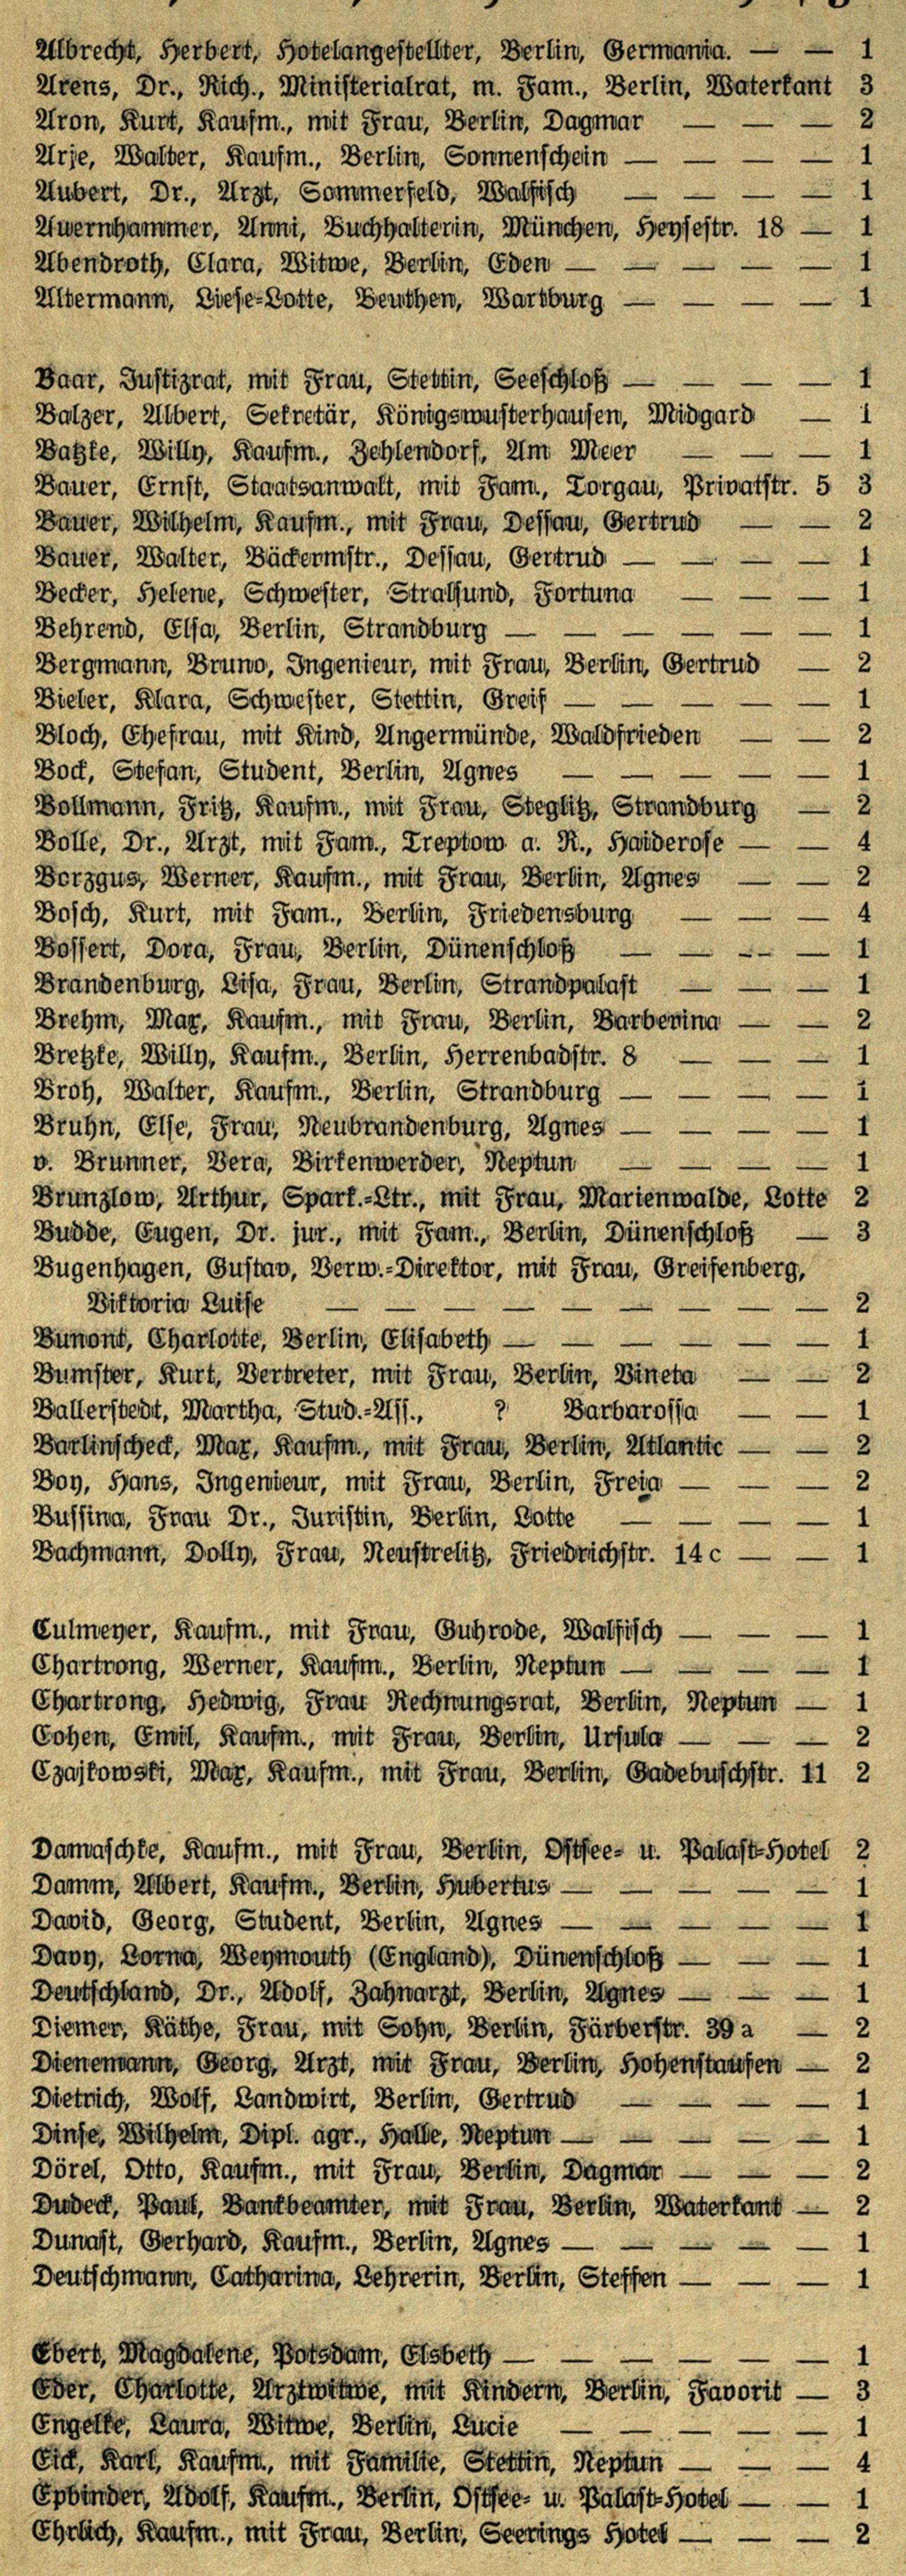Albrecht, Herbert, Hotelangestellter, Berlin, Germania | 1
Arens, Dr., Rich., Ministerialrat, m. Fam., Berlin, Waterkant | 3
Aron, Kurt, Kaufm., mit Frau, Berlin, Dagmar | 2
Arje, Walter, Kaufm., Berlin, Sonneschein | 1
Aubert, Dr., Arzt, Sommerfeld, Walfisch | 1
Auernhammer, Anni, Buchhalterin, Münhen, Heysestr. 18 | 1
Abendroth, Clara, Witwe, Berlin, Eden | 1
Altermann, Liese=Lotte, Beuthen, Martburg | 1
Baar, Justizrat, mit Frau, Stettin, Seeschloß | 1
Balzer, Albert, Sekretär, Königswusterhausen, Midgard | 1
Batzke, Willy, Kaufm., Zehlendorf, Am Meer | 1
Bauer, Ernst, Staatsanwalt, mit Fam., Torgau, Privatstr. 5 | 3
Bauer, Wilhelm, Kaufm., mit Frau, Dessau, Gertrud | 2
Bauer, Walter, Bäckermstr., Dessau, Gertrud | 1
Becker, Helene, Schwester, Stralsund, Fortuna | 1
Behrend, Elsa, Berlin, Strandburg | 1
Bergmann, Bruno, Ingenieur, mit Frau, Berlin, Gertrud | 2
Bieler, Klara, Schwester, Stettin, Greif | 1
Bloch, Ehefrau, mit Kind, Angermünde, Waldfrieden | 2
Bock, Stefan, Student, Berlin, Agnes | 1
Bollmann, Fritz, Kaufm., mit Frau, Steglitz, Strandburg | 2
Bolle, Dr., Arzt, mit Fam., Treptow a. R., Haiderose | 4
Borzgus, Werner, Kaufm., mit Frau, Berlin, Agnes | 2
Bosch, Kurt, mit Fam., Berlin, Friedensburg | 4
Bossert, Dora, Frau, Berlin, Dünenschloß | 1
Brandenburg, Lisa, Frau, Berlin, Strandpalast | 1
Brehm, Max, Kaufm., mit Frau, Berlin, Barberina | 2
Bretzke, Willy, Kaufm., Berlin, Herrenbadstr. 8 | 1
Broh, Walter, Kaufm., Berlin, Strandburg | 1
Bruhn, Else, Frau, Neubrandenburg, Agnes | 1
v. Brunner, Vera, Birkenwerder, Neptun | 1
Brunzlow, Arthur, Spark.=Ltr., mit Frau, Marienwalde, Lotte | 2
Budde, Eugen, Dr. jur., mit Fam., Berlin, Dünenschloß | 3
Bugenhagen, Gustav, Verw.=Direktor, mit Frau, Greifenberg,
Viktoria Luise | 2
Bunont, Charlotte, Berlin, Elisabeth | 1
Bumster, Kurt, Vertreter, mit Frau, Berlin, Vineta | 2
Ballerstedt, Martha, Stud.=Ass., ? Barbarossa | 1
Barlinscheck, Max, Kaufm., mit Frau, Berlin, Atlantic | 2
Boy, Hans, Ingenieur, mit Frau, Berlin, Freia | 2
Bussina, Frau Dr., Juristin, Berlin, Lotte | 1
Bachmann, Dolly, Frau, Neustrelitz, Friedrichstr. 14c | 1
Culmeyer, Kaufm., mit Frau, Guhrode, Walfisch | 1
Chartrong, Werner, Kaufm., Berlin, Neptun | 1
Chartrong, Hedwig, Frau Rechnungsrat, Berlin, Neptun | 1
Cohen, Emil, Kaufm., mit Frau, Berlin, Ursula | 2
Czajkowski, Max, Kaufm., mit Frau, Berlin, Gadebuschstr. 11 | 2
Damaschke, Kaufm., mit Frau, Berlin, Ostsee= u. Palast=Hotel | 2
Damm, Albert, Kaufm., Berlin, Hubertus | 1
David, Georg, Student, Berlin, Agnes | 1
Davy, Lorna, Weymouth (England), Dünenschloß | 1
Deutschland, Dr., Adolf, Zahnarzt, Berlin, Agnes | 1
Diemer, Käthe, Frau, mit Sohn, Berlin, Färberstr. 39a | 2
Dienemann, Georg, Arzt, mit Frau, Berlin, Hohenstaufen | 2
Dietrich, Wolf, Landwirt, Berlin, Gertrud | 1
Dinse, Wilhelm, Dipl. agr., Halle, Neptun | 1
Dörel, Otto, Kaufm., mit Frau, Berlin, Dagmar | 2
Dudeck, Paul, Bankbeamter, mit Frau, Berlin, Waterkant | 2
Dunast, Gerhard, Kaufm., Berlin, Agnes | 1
Deutschmann, Catharina, Lehrerin, Berlin, Steffen | 1
Ebert, Magdalene, Potsdam, Elsbeth | 1
Eder, Charlotte, Arztwitwe, mit Kindern, Berlin, Favorit | 3
Engelke, Laura, Witwe, Berlin, Lucie | 1
Eick, Karl, Kaufm., mit Familie, Stettin, Neptun | 4
Epbinder, Adolf, Kaufm., Berlin, Ostsee= u. Palast=Hotel | 1
Ehrilich, Kaufm., mit Frau, Berlin, Seerings Hotel | 2
